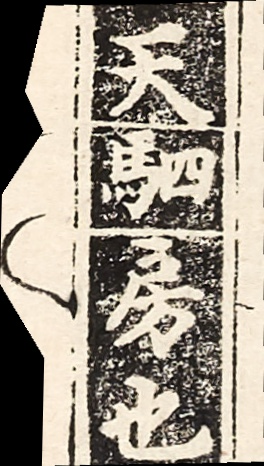天駟房也
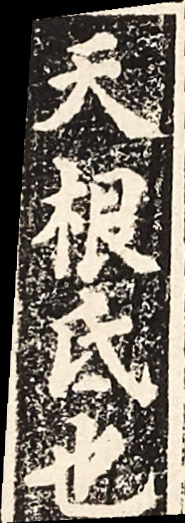天根氐也
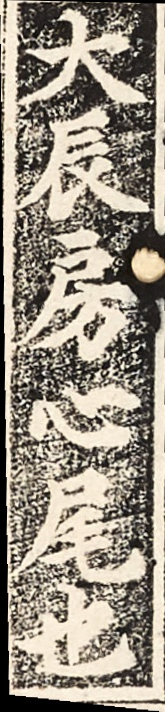大長房心尾也
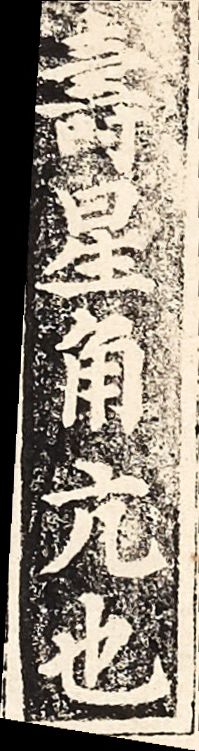壽星角六也
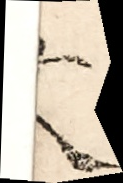十八
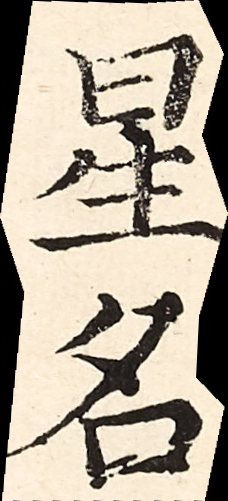星名
